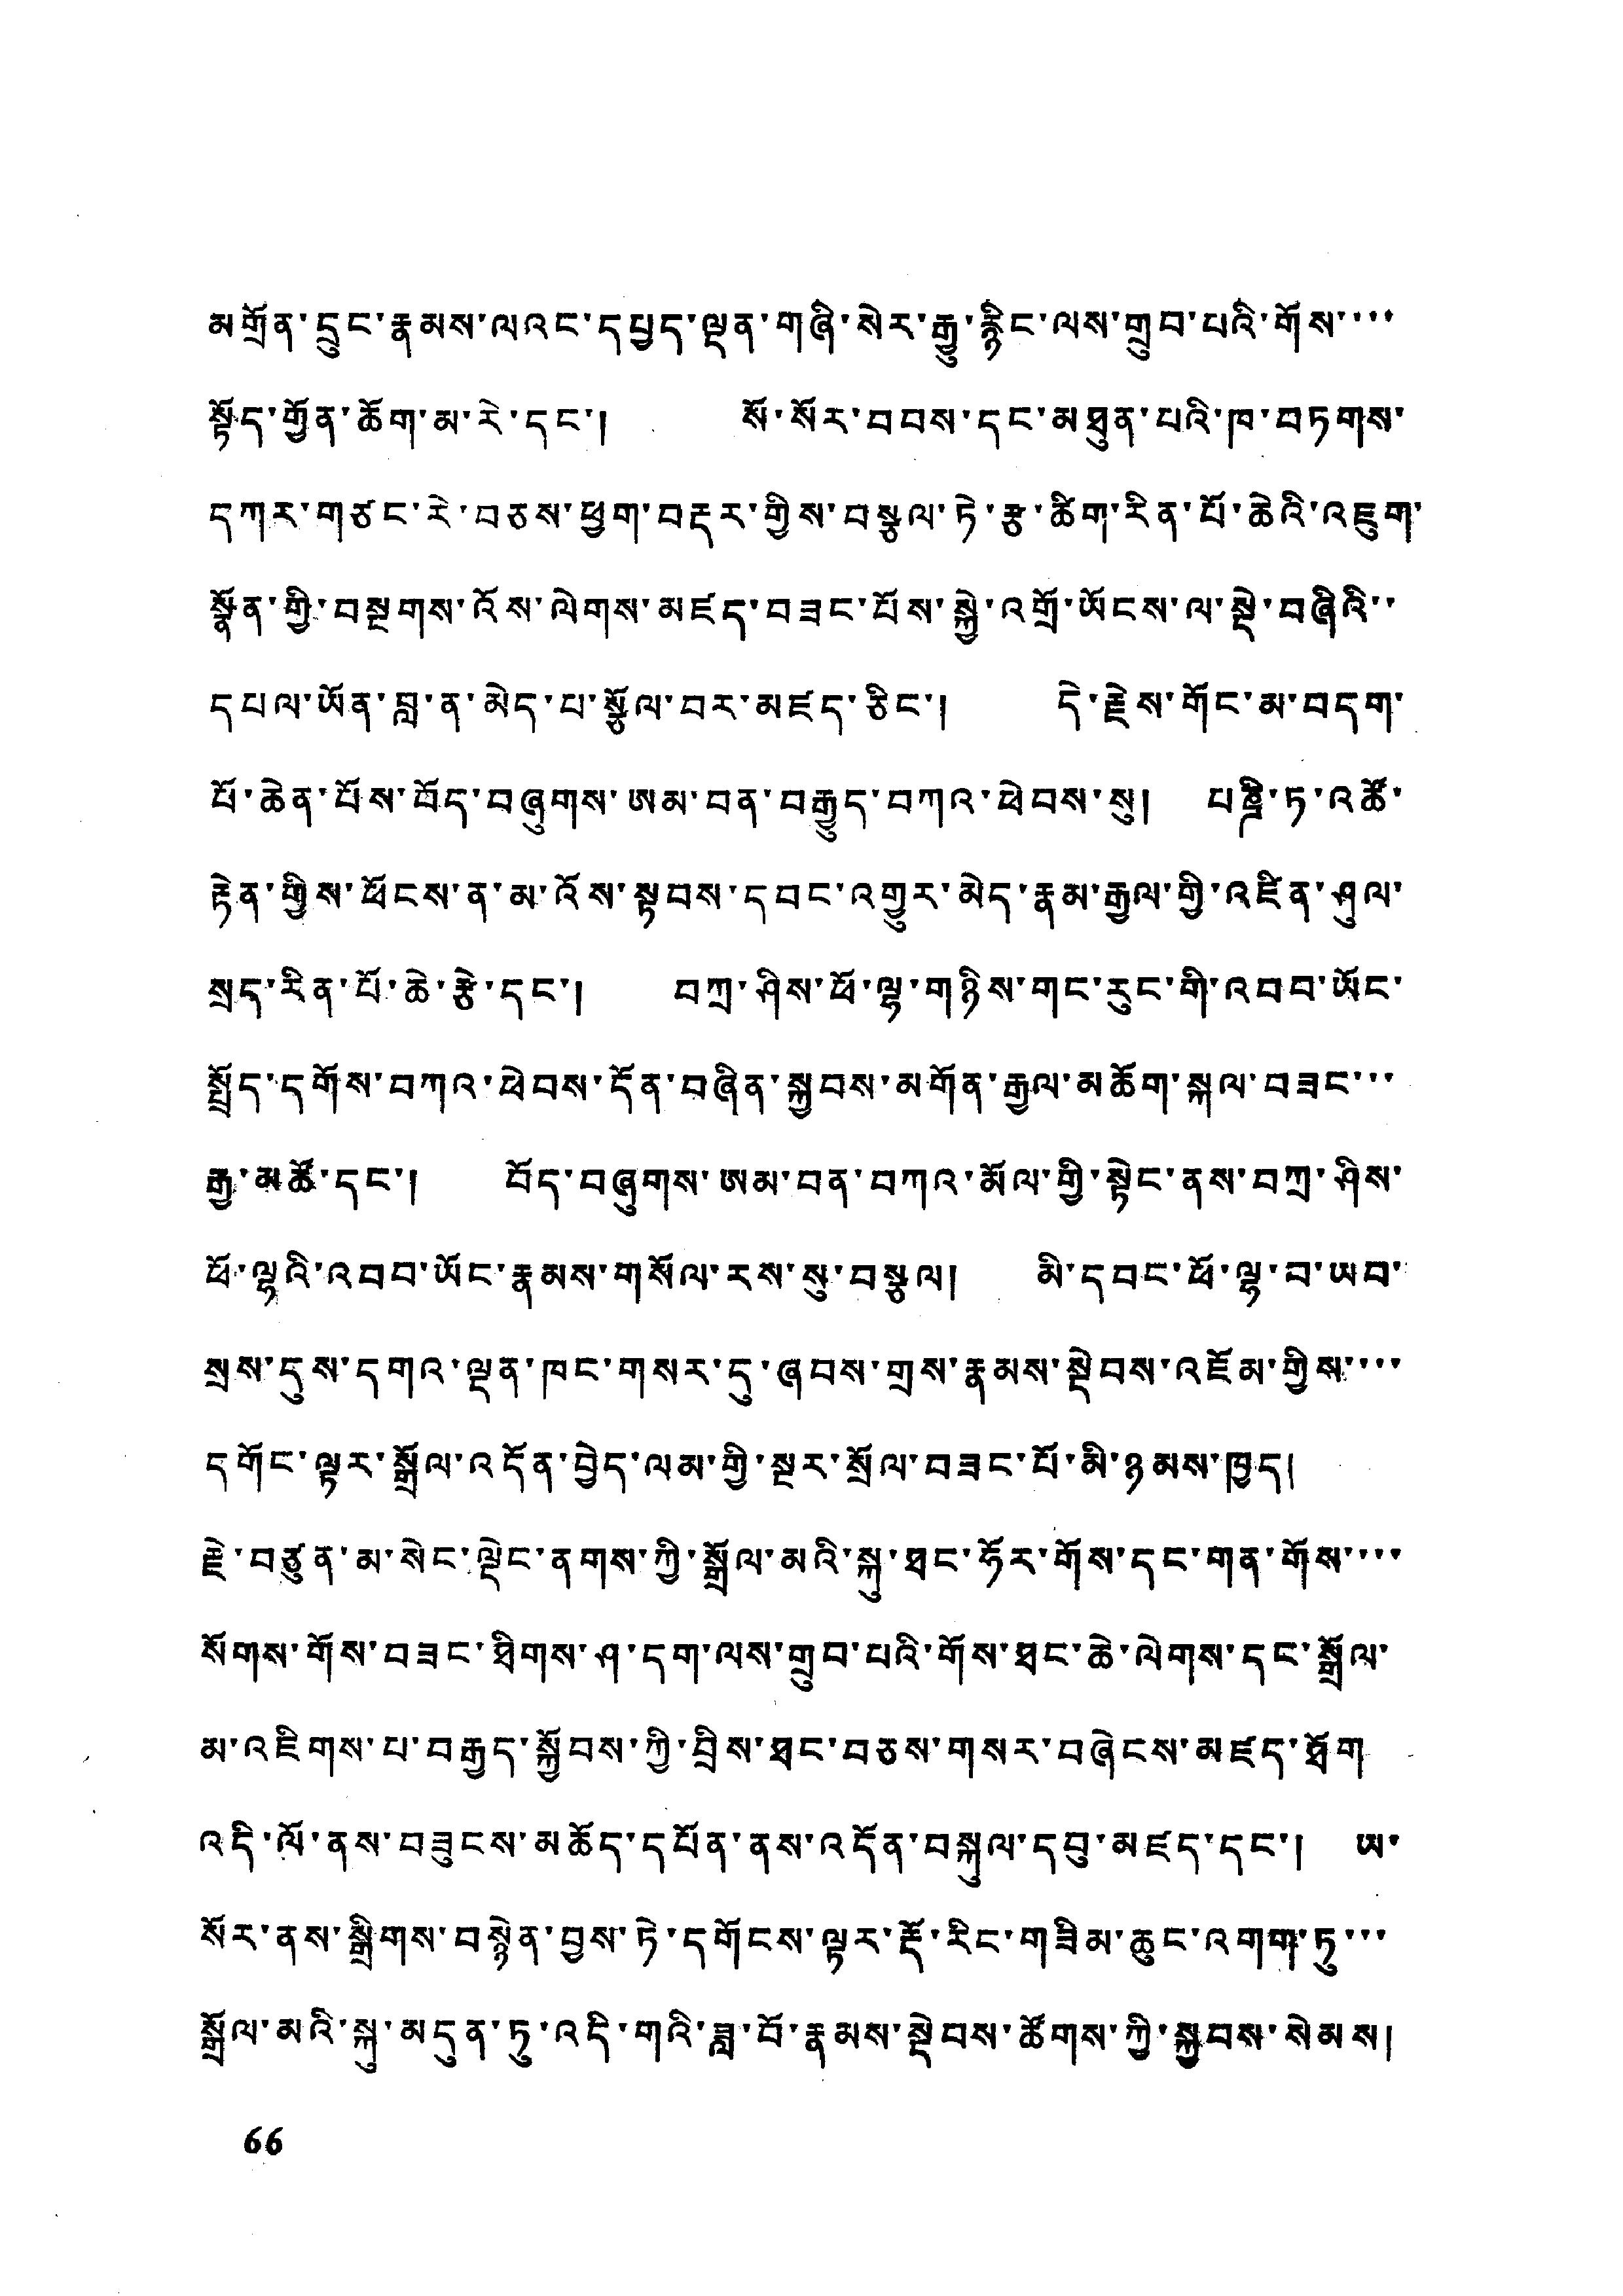མགྲོན་དྲུང་རྣམས་ལའང་དཔྱད་ལྡན་གཞི་སེར་རྒྱུ་རྙིང་ལས་གྲུབ་པའི་གོས་་་་
སྟོད་གྱོན་ཆོག་མ་རེ་དང་། སོ་སོར་བབས་དང་མཐུན་པའི་ཁ་བཏགས་
དཀར་གཙང་རེ་བཅས་ཕྱག་བརྡར་གྱིས་བསྩལ་ཏེ་རྩ་ཚིག་རིན་པོ་ཆེའི་འཇུག་
སྣོན་གྱི་བསྔགས་འོས་ལེགས་མཛད་བཟང་པོས་སྐྱེ་འགྲོ་ཡོངས་ལ་སྡེ་བཞིའི་་
དཔལ་ཡོན་བླ་ན་མེད་པ་སྩོལ་བར་མཛད་ཅིང་། དེ་རྗེས་གོང་མ་བདག་
པོ་ཆེན་པོས་བོད་བཞུགས་ཨམ་བན་བརྒྱུད་བཀའ་ཕེབས་སུ། པཎྜི་ཏ་འཚོ་
རྟེན་གྱིས་ཕོངས་ན་མ་འོས་སྟབས་དབང་འགྱུར་མེད་རྣམ་རྒྱལ་གྱི་འཛིན་ཤུལ་
སྲད་རིན་པོ་ཆེ་རྩེ་དང་། བཀྲ་ཤིས་ཕོ་ལྷ་གཉིས་གང་རུང་གི་འབབ་ཡོང་
སྤྲོད་དགོས་བཀའ་ཕེབས་དོན་བཞིན་སྐྱབས་མགོན་རྒྱལ་མཆོག་སྐལ་བཟང་
རྒྱ་མཚོ་དང་། བོད་བཞུགས་ཨམ་བན་བཀའ་མོལ་གྱི་སྟེང་ནས་བཀྲ་ཤིས་
ཕོ་ལྷའི་འབབ་ཡོང་རྣམས་གསོལ་རས་སུ་བསྩལ། མི་དབང་ཕོ་ལྷ་བ་ཡབ་
སྲས་དུས་དགའ་ལྡན་ཁང་གསར་དུ་ཞབས་གྲས་རྣམས་སྡེབས་འཛོམ་གྱིས་་་་
དགོང་ལྟར་སྒྲོལ་འདོན་བྱེད་ལམ་གྱི་སྔར་སྲོལ་བཟང་པོ་མི་ཉམས་ཁྱད།
རྗེ་བཙུན་མ་སེང་ལྡེང་ནགས་ཀྱི་སྒྲོལ་མའི་སྐུ་ཐང་ཧོར་གོས་དང་གན་གོས་་་་
སོགས་གོས་བཟང་ཐིགས་ཤ་དག་ལས་གྲུབ་པའི་གོས་ཐང་ཆེ་ལེགས་དང་སྒྲོལ་
མ་འཇིགས་པ་བརྒྱད་སྐྱོབས་ཀྱི་བྲིས་ཐང་བཅས་གསར་བཞེངས་མཛད་ཐོག
འདི་ལོ་ནས་བཟུངས་མཆོད་དཔོན་ནས་འདོན་བསྐུལ་དབུ་མཛད་དང་། ཡ་
སོར་ནས་སྒྲིགས་བསྙེན་བྱས་ཏེ་དགོངས་ལྟར་རྡོ་རིང་གཟིམ་ཆུང་འགག་ཏུ་་་
སྒྲོལ་མའི་སྐུ་མདུན་ཏུ་འདི་གའི་ཟླ་བོ་རྣམས་སྡེབས་ཚོགས་ཀྱི་སྐྱབས་སེམས།
66
